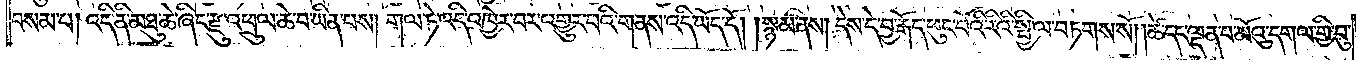བསམ་པ། འདི་ནི་མཐུ་ཆེ་ཞིང་རྫུ་འཕྲུལ་ཆེ་བ་ཡིན་པས། གལ་ཏེ་འདི་འཁྱེར་བར་འགྱུར་བའི་གནས་འདི་ཡོད་དོ། །སྙམ་ནས། དེས་དེ་བྱ་རྒོད་ཕུང་པོའི་རིའི་སྤྱི་ལ་བཏགས་སོ། །ཚེ་དང་ལྡན་པ་མོའུ་དགལ་གྱི་བུ་
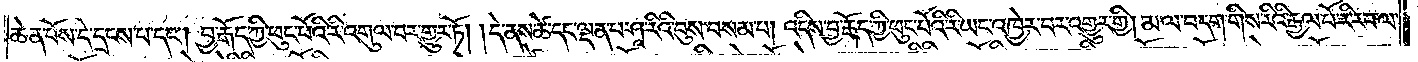ཆེན་པོས་དེ་དྲངས་པ་དང༌། བྱ་རྒོད་ཀྱི་ཕུང་པོའི་རི་འགུལ་བར་གྱུར་ཏོ། །དེ་ནས་ཚེ་དང་ལྡན་པ་ཤཱ་རིའི་བུས་བསམ་པ། འདིས་བྱ་རྒོད་ཀྱི་ཕུང་པོའི་རི་ཡང་འཁྱེར་བར་འགྱུར་གྱི། མ་ལ་བདག་གིས་རིའི་རྒྱལ་པོ་རི་རབ་ལ་
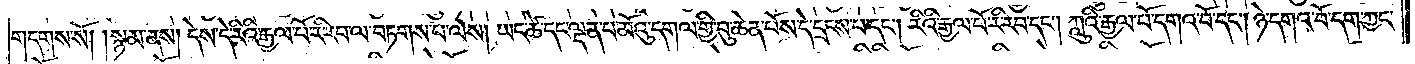གདགས་སོ། །སྙམ་ནས། དེས་དེ་རིའི་རྒྱལ་པོ་རི་རབ་ལ་བཏགས་པ་ལས། ཡང་ཚེ་དང་ལྡན་པ་མོའུ་དགལ་གྱི་བུ་ཆེན་པོས་དེ་དྲངས་པ་དང༌། རིའི་རྒྱལ་པོ་རི་རབ་དང༌། ཀླུའི་རྒྱལ་པོ་དགའ་བོ་དང༌། ཉེ་དགའ་བོ་དག་ཀྱང་
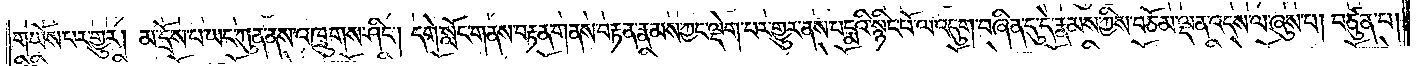གཡོས་པར་གྱུར། མ་དྲོས་པ་ཡང་ཀུན་ནས་འཁྲུགས་ཤིང༌། དགེ་སློང་གནས་བརྟན་གནས་བརྟན་རྣམས་ཀྱང་ལྡེག་པར་གྱུར་ནས་པདྨའི་སྙིང་པོ་ལ་འདུག་བཞིན་དུ་དེ་རྣམས་ཀྱིས་བཅོམ་ལྡན་འདས་ལ་ཞུས་པ། བཙུན་པ།
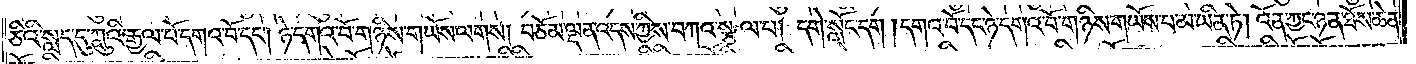ཅིའི་སླད་དུ་ཀླུའི་རྒྱལ་པོ་དགའ་བོ་དང༌། ཉེ་དགའ་བོ་གཉིས་གཡོས་ལགས། བཅོམ་ལྡན་འདས་ཀྱིས་བཀའ་སྩལ་པ། དགེ་སློང་དག །དགའ་བོ་དང་ཉེ་དགའ་བོ་གཉིས་གཡོས་པ་མ་ཡིན་ཏེ། འོན་ཀྱང་ཉན་ཐོས་ཆེན་
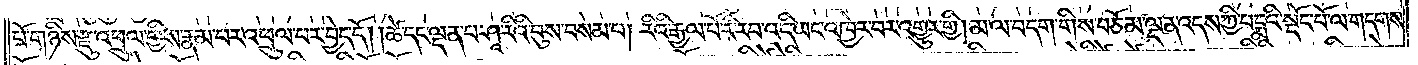པོ་གཉིས་རྫུ་འཕྲུལ་གྱིས་རྣམ་པར་འཕྲུལ་པར་བྱེད་དོ། །ཚེ་དང་ལྡན་པ་ཤཱ་རིའི་བུས་བསམ་པ། རིའི་རྒྱལ་པོ་རི་རབ་འདི་ཡང་འཁྱེར་བར་འགྱུར་གྱི། མ་ལ་བདག་གིས་བཅོམ་ལྡན་འདས་ཀྱི་པདྨའི་སྡོང་པོ་ལ་གདགས་
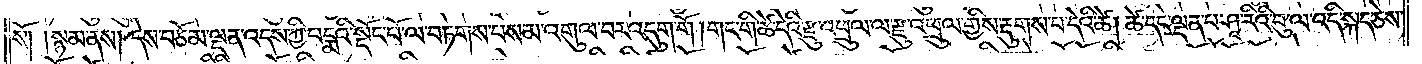སོ། །སྙམ་ནས། དེས་བཅོམ་ལྡན་འདས་ཀྱི་པདྨའི་སྡོང་པོ་ལ་བཏགས་པས་མ་འགུལ་བར་འདུག་གོ །གང་གི་ཚེ་དེའི་རྫུ་འཕྲུལ་ལ་རྫུ་འཕྲུལ་གྱིས་རྡུགས་པ་དེའི་ཚེ། ཚེ་དང་ལྡན་པ་ཤཱ་རིའི་བུ་ལ་འདི་སྐད་ཅེས་
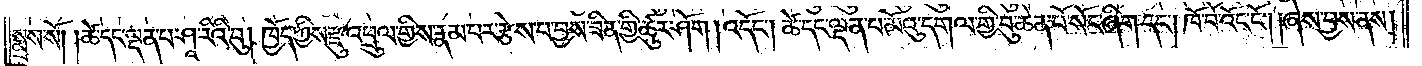སྨྲས་སོ། །ཚེ་དང་ལྡན་པ་ཤཱ་རིའི་བུ། ཁྱོད་ཀྱིས་རྫུ་འཕྲུལ་གྱིས་རྣམ་པར་རྩེས་པ་བྱས་ཟིན་གྱི་ཚུར་ཤོག །འདོང༌། ཚེ་དང་ལྡན་པ་མོའུ་དགལ་གྱི་བུ་ཆེན་པོ་སོང་ཞིག་དང༌། ཁོ་བོ་འོང་ངོ༌། །ཞེས་བྱས་ནས།
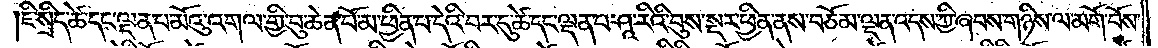ཇི་སྲིད་ཚེ་དང་ལྡན་པ་མོའུ་འགལ་གྱི་བུ་ཆེན་པོ་མ་ཕྱིན་པ་དེའི་བར་དུ་ཚེ་དང་ལྡན་པ་ཤཱ་རིའི་བུས་སྔར་ཕྱིན་ནས་བཅོམ་ལྡན་འདས་ཀྱི་ཞབས་གཉིས་ལ་མགོ་བོས་
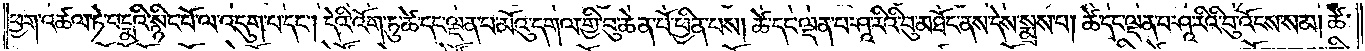ཕྱག་འཚལ་ཏེ་པདྨའི་སྙིང་པོ་ལ་འདུག་པ་དང༌། དེའི་འོག་ཏུ་ཚེ་དང་ལྡན་པ་མོའུ་དགལ་གྱི་བུ་ཆེན་པོ་ཕྱིན་པས། ཚེ་དང་ལྡན་པ་ཤཱ་རིའི་བུ་མཐོང་ནས་དེས་སྨྲས་པ། ཚེ་དང་ལྡན་པ་ཤཱ་རིའི་བུ་འོངས་སམ། ཚེ་
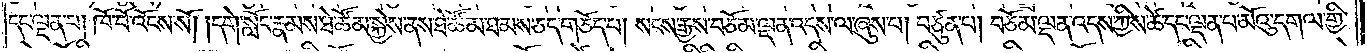དང་ལྡན་པ། ཁོ་བོ་འོངས་སོ། །དགེ་སློང་རྣམས་ཐེ་ཚོམ་སྐྱེས་ནས་ཐེ་ཚོམ་ཐམས་ཅད་གཅོད་པ། སངས་རྒྱས་བཅོམ་ལྡན་འདས་ལ་ཞུས་པ། བཙུན་པ། བཅོམ་ལྡན་འདས་ཀྱིས་ཚེ་དང་ལྡན་པ་མོའུ་དགལ་གྱི་
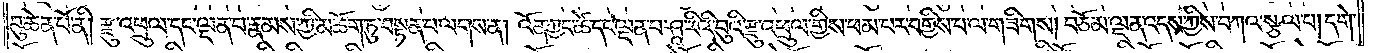བུ་ཆེན་པོ་ནི། རྫུ་འཕྲུལ་དང་ལྡན་པ་རྣམས་ཀྱི་མཆོག་ཏུ་བསྟན་པ་ལགས་ན། འོན་ཀྱང་ཚེ་དང་ལྡན་པ་ཤཱ་རིའི་བུའི་རྫུ་འཕྲུལ་གྱིས་ཕམ་པར་བགྱིས་པ་ལ་གཟིགས། བཅོམ་ལྡན་འདས་ཀྱིས་བཀའ་སྩལ་པ། དགེ་
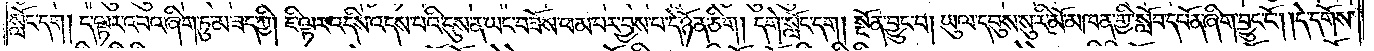སློང་དག །ད་ལྟར་འབའ་ཞིག་ཏུ་མ་ཟད་ཀྱི། ཇི་ལྟར་འདིས་འདས་པའི་དུས་ན་ཡང་བཟོས་ཕམ་པར་བྱས་པ་དེ་ཉོན་ཅིག །དགེ་སློང་དག །སྔོན་བྱུང་བ། ཡུལ་དབུས་སུ་རི་མོ་མཁན་གྱི་སློབ་དཔོན་ཞིག་བྱུང་ངོ༌། །དེ་དགོས་
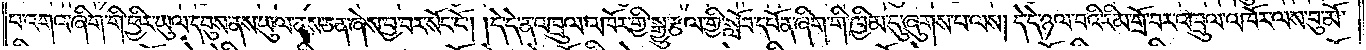པ་འགའ་ཞིག་གི་ཕྱིར་ཡུལ་དབུས་ནས་ཡུལ་ནས་ཅན་ཞེས་བྱ་བར་སོང་ངོ༌། །དེ་དེ་ན་འཁྲུལ་འཁོར་གྱི་སྒྱུ་རྩལ་གྱི་སློབ་དཔོན་ཞིག་གི་ཁྱིམ་དུ་ཞུགས་པ་ལས། དེ་དེ་ཉལ་བའི་རིམ་གྲོ་བར་འཁྲུལ་འཁོར་ལས་བུ་མོ་
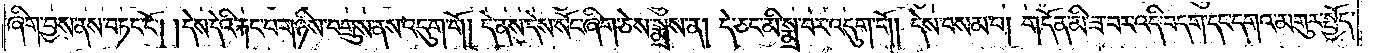ཞིག་བྱས་ནས་བཏང་ངོ༌། །དེས་དེའི་རྐང་པ་གཉིས་བགྲུས་ནས་འདུག་གོ། དེ་ནས་དེས་སོང་ཞིག་ཅེས་སྨྲས་ན། དེ་ཅང་མི་སྨྲ་བར་འདུག་གོ། དེས་བསམ་པ། གདོན་མི་ཟ་བར་འདི་བདག་དང་དགའ་མགུར་སྤྱོད་
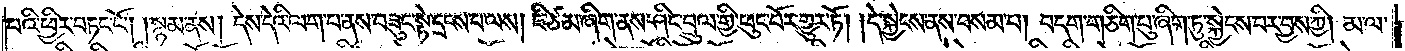པའི་ཕྱིར་བཏང་ངོ༌། །སྙམ་ནས། དེས་དེའི་ལག་པ་ནས་བཟུང་སྟེ་དྲངས་པ་ལས། ཇི་ཙམ་ཞིག་ནས་ཤིང་བྲུལ་གྱི་ཕུང་པོར་གྱུར་ཏོ། །དེ་སྐྱེངས་ནས་བསམ་པ། བདག་གཅིག་པུ་ཞིག་ཏུ་སྐྱེངས་བར་བྱས་ཀྱི། མ་ལ་
